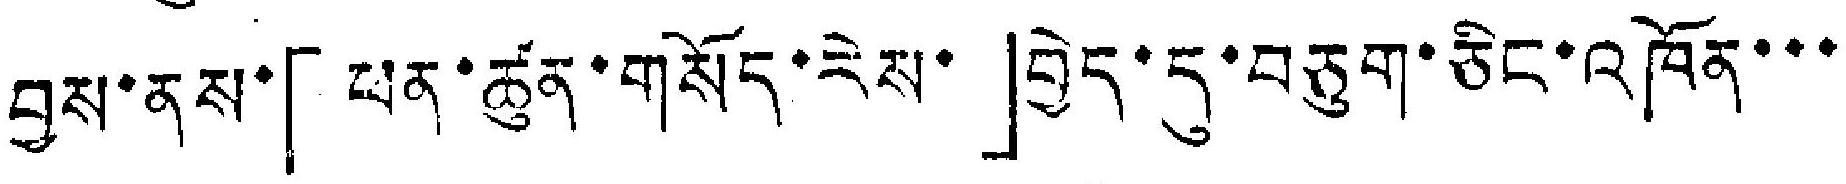བྱས་ནས་「ཕན་ཚུན་གསོད་རེས་」ཁྱེད་དུ་བཅུག་ཅིང་འཁོན་་་
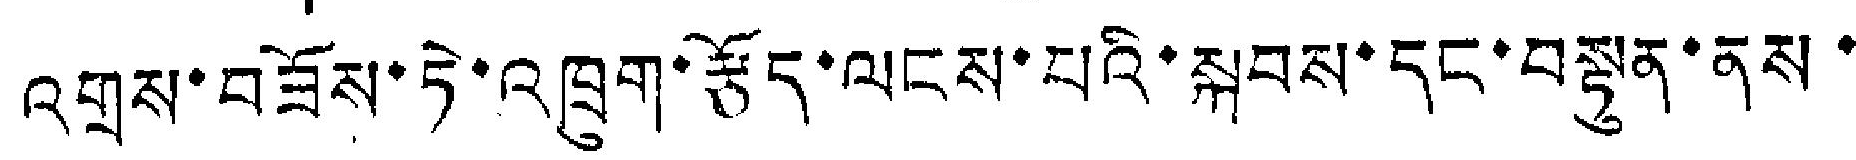འགྲས་བཟོས་ཏེ་འཁྲུག་རྩོད་ལངས་པའི་སྐབས་དང་བསྟུན་ནས
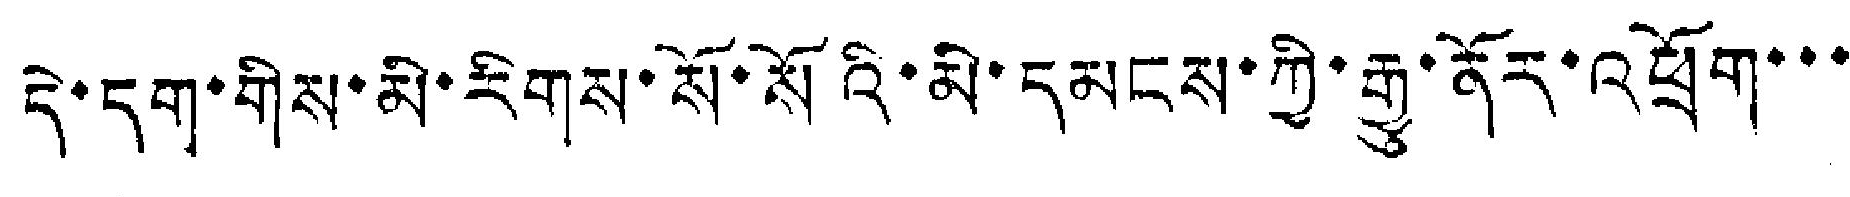དེ་དག་གིས་མི་རིགས་སོ་སོའི་མི་དམངས་ཀྱི་རྒྱུ་ནོར་འཕྲོག་་་
